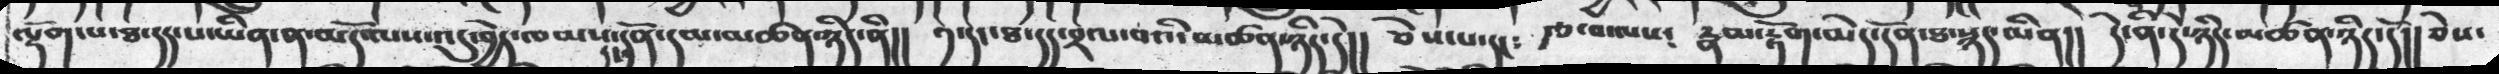ལྡོག་པ་ཐ་དད་པ་ཡིན་ན་མདོ་ལས་འདུ་བྱེད་ཁམས་དང་དོན་དམ་མཚན་ཉིད་ནི།།  ༡་དང་ཐ་དད་བྲལ་བའི་མཚན་ཉིད་དེ།།  ཅེས་པ་དང༴  རྩ་བ་ལས༴  རྣམ་རྟོག་མེད་དོན་ཐ་སྙད་ཡིན།།  དེ་ནི་ཉིད་མཚན་ཉིད་དོ།། ཅེས་
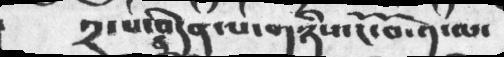༢་པ་ན་བདེན་པ་གཉིས་ངོ་བོ་༡་ལ་
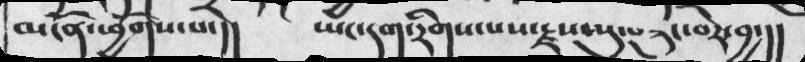མངོན་ཕྱོགས་པ་།།   ཡང་དག་རིགས་པས་རྗས་སུ་བཀུང་བར་བྱ་།།
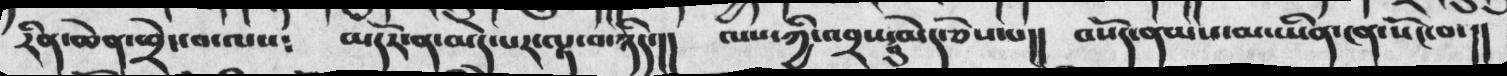རིན་ཆེན་ཕྲེང་བ་ལས༴   མདོར་ན་མེད་པར་ལྟ་བ་ཉིད་།།  ལས་ཀྱི་འབྲས་བུ་མེད་ཅེས་པ།།  བསོད་ནམས་མ་ཡིན་ངན་སོང་བ་།།
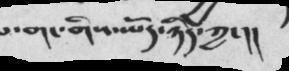པ་གང་གིས་ཡོད་ཉིད་ཀྱང།།
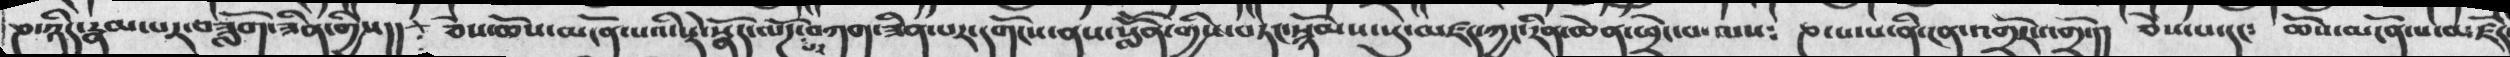ཎ་ཉིད་རྣམ་པར་བཟློག་ཟིན་གྱིས།།  ཅེས་ཆོས་མངོན་པའི་སྡེ་སྣོད་ལོཌ་པར་བཀག་ཟིན་པར་དགོངས་ནས་སློན་གྱིས་བཏང་སྙོམས་སུ་མཛད་ཀྱང་རིན་ཆེན་ཕྲེང་བ་ལས༴   ཎ་པ་པ་ནི་ངན་འགྲོར་འགྲོ་།།  ཅེས་པ་དང༴   ཆོས་མངོན་པ་མཛོད་
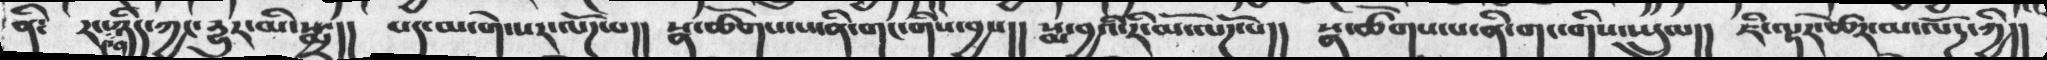ནི༴  རང་༤ན་ཉིད་ཀྱང་དྱུར་མི་སྨྲ།།  པད་མ་གེ་སར་ལོཌ་པ།།  སྣ་ཚོགས་ཡིན་གང་གིས་བྱས།།  སྨ་བྱའི་རི་མོ་ལཌོ་པ།།  སྣ་ཚོགས་པ་ནི་གང་གིས་སྤྲུལ།།  ཇི་ལྟར་ཚེར་མ་ལོཌ་ཀྱི།།
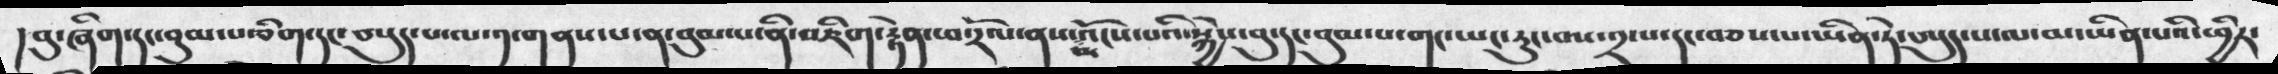།བུ་ཞིག་དང་བུམ་པ་ཅིག་དང་བསུད་པ་ལ་༡་གནས་པ་ན་བུམ་པ་ནི་འཇིག་རྟེན་ཕ་རོལ་ནས་མ་འོངས་པའི་སྐྱེས་བུ་དང་བུམ་པ་གང་ཡང་རུང་བས་༢་པ་དང་བཅས་པ་ཡིན་ཏེ་ཨུད་པ་ལ་མ་ཡིན་པའི་ཕྱིར་
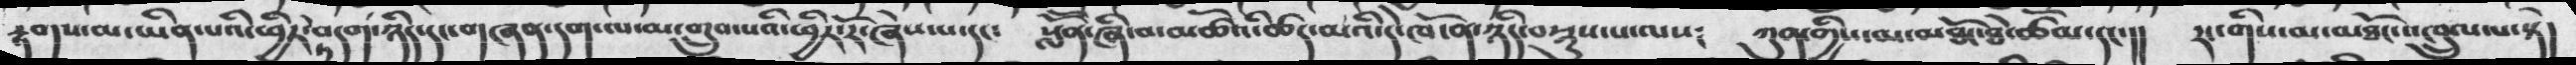རྟགས་མ་ཡིན་པའི་ཕྱིར་ཏུ་བདག་ཉིད་དང་གཞན་དག་ལ་མ་གྲུབ་པའི་ཕྱིར་རོ་ཞེས་པ་དང༴  སློན་ཞི་བ་མཚོའི་ཚད་མའི་དེ་ཁོ་ན་ཉིད་བསྡུས་པ་ལས༴   ཀུན་གྱིས་མ་མཐོང་ཐེ་ཚོམ་དང་།།  རང་གིས་མ་མཐོང་འཁྲུལ་པ་སྟེ།
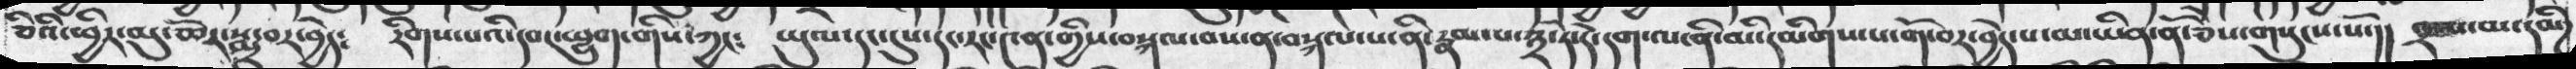ཅིའི་ཕྱིར་མུ་ཆེར་སྨྲ་བར་བྱེད༴   རིགས་པའི་དབང་ཕྱུག་གིས་ཀྱང༴  ཡུལ་དང་དུས་དང་རང་༤ན་གྱིས་བསྐལ་བས་ན་བསྐལ་པ་ནི་རྣམ་པ་༣་ཏེ་དེ་དག་ལ་ནི་མི་དམིགས་པ་གོ་བར་བྱེད་པ་མ་ཡིན་ནོ་ཅེས་གསུངས་སོ་།།    ༢་པ་མ་དམིཌ
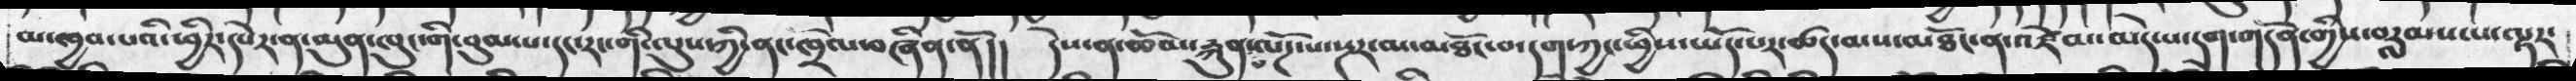མ་ཁྱབ་པའི་ཕྱིར་དཔེར་ན་མུན་ཁུང་གི་བུམ་པ་དང་རང་གི་ལུས་ཀྱི་ནང་ཁྲོེ་བཞིན་ནོ།།    དེས་ན་ཆོམ་རྐུན་པ་ལོཌ་པ་སྔར་མ་མཐོང་བ་དག་ཀྱང་ཕྱིས་ཡོད་པར་ཚད་མས་མཐོང་ན་འཛེམ་མེད་པ་དག་གདོན་གྱིས་བརླབས་པ་ལྟར་
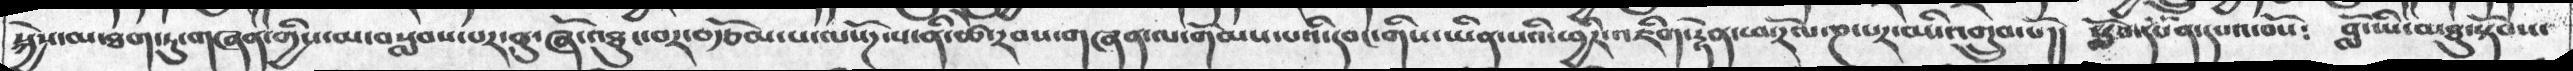སྐྱེས་མ་ཐག་ཏུ་གཞན་གྱིས་མ་བསླབས་པར་ནུ་ཞོ་འཐུང་བར་བརྩོམ་པ་ལསོཌ་པ་ནི་ཚེ་རབས་གཞན་ལ་གོམས་པའི་དབང་གིས་ཡིན་པའི་ཕྱིར་འཇིག་རྟེན་ཕ་རོལ་པ་ཎ་པར་མི་འགྲུབ་པོ།།  སློབ་དཔོན་དཔའ་བོས༴  བློ་ཡི་མཐུ་སྟོབས་
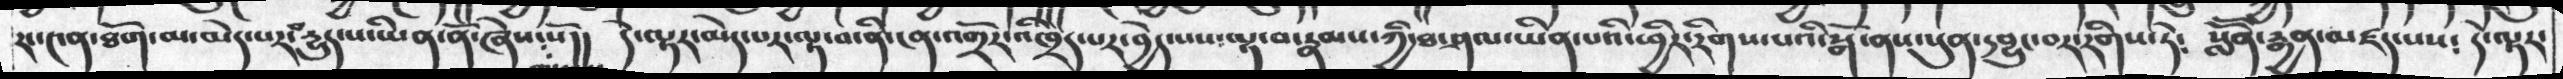རང་༤ན་ཐོག་མ་མེད་པར་དྱུད་པ་ཡིན་ནོ་ཞེས་སོ།།  དེ་ལྟར་མེད་པར་ལྟ་བ་ནི་ངན་འགྲོར་འཁྲིད་པར་བྱེད་པས་ལྟ་བ་རྣམས་ཀྱི་ཐ་ཤལ་ཡིན་པའི་ཕྱིར་རིགས་པའི་སྒོ་ནས་སུན་དབྱུང་བར་རིགས་ཏེ༴      སློན་རྒྱན་མཛད་པས༴   དེ་ལྟར་
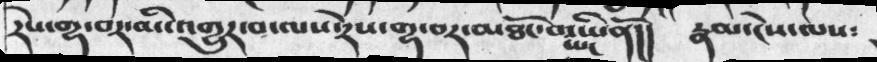རེས་གྷ་བར་མི་འགྱུར་བ་ལས་ཏྲེས་གྷ་བར་མཐོང་བ་ཡང་ཡིནོ།།  རྣམ་ངེས་ལས༴
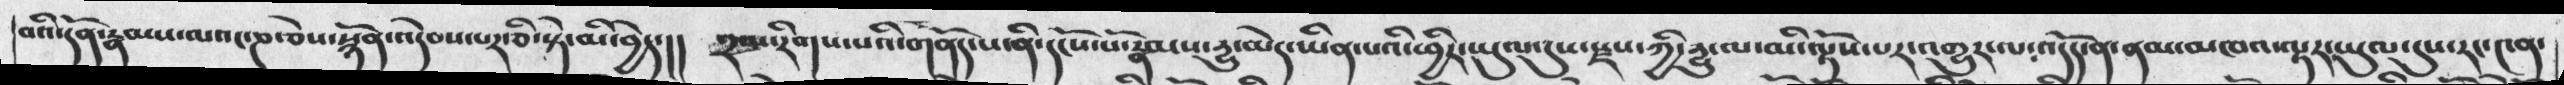བའི་དོན་རྣམས་ལའང་ཎ་ཅེས་སྙོན་འདེབས་པར་ཅི་སྟེ་མི་བྱེད་།།  ༢་པ་རིགས་པའི་གནོད་པ་ནི་དངོས་པོ་རྣམས་དྱུ་མེད་ཡིན་པའི་ཕྱིར་ཡུལ་དུས་རྫས་ཀྱི་དྱུ་ལ་མི་ལྟོས་པར་འགྱུར་ལ་འདོད་ན་ནམ་མཁའ་ལྟར་ཡུལ་དུས་རང་༤ན་
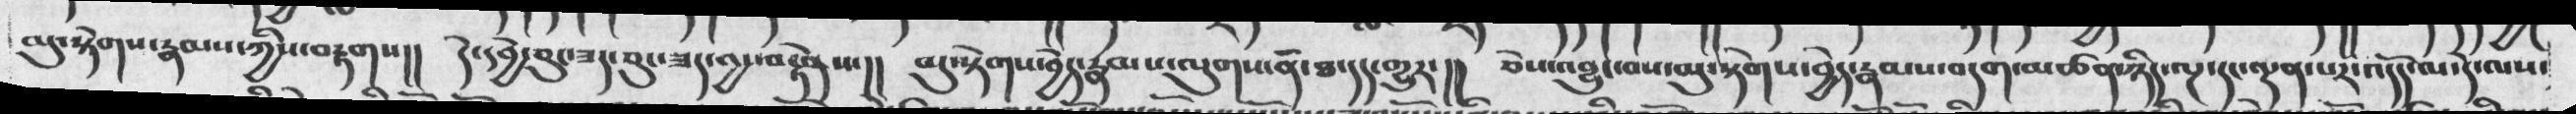མུ་སྟེགས་རྣམས་ཀྱིས་བརྟགས།།  དེ་དབྱེ་ཅུང་ཟད་ཅུང་ཟད་མྱ་བརྟེནས་།།  མུ་སྟེགས་བྱེད་རྣམས་ལུགས་ནི་ཐ་དད་གྱུར་།།   ཅེས་འབྱུང་བས་མུ་སྟེགས་བྱེད་རྣམས་བདག་མཚན་ཉིད་ལྔ་དང་ལྡན་པར་འདོད་ལ་དེ་ལས་
